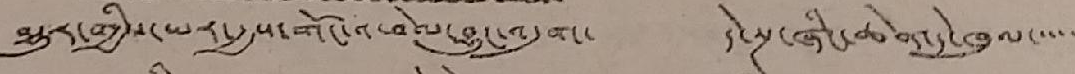མྱུར་གྱིས་ཡར་རྒྱས་གོང་འཕེལ་བྱུང་འདུག་ དེ་སྔ་ཞིང་ཆེན་དེ་ཁུལ་་་་་
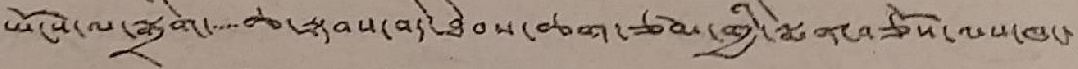ཡོངས་ལ་སྒྲིག་་་་་ཆ་སྟབས་བདེ་ཐེབས་ཆག་ཙམ་གྱི་སྨན་བཅོས་ལས་ཁང་
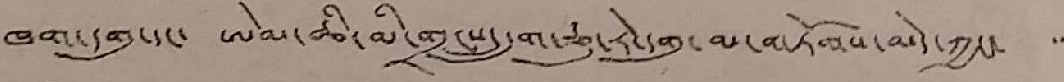ཁག་དགུ་དང་ ཨེམ་ཆི་མི་གྲངས་དྲུག་ཅུ་རེ་དགུ་མ་གཏོགས་མེད་ཀྱང་ ་་
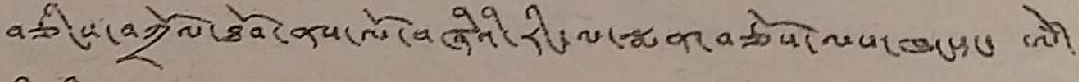བཅིངས་བཀྲོལ་ཐོབ་ནས་ལོ་བཞིའི་རིང་ལ་སྨན་བཅོས་ལས་ཁང་དང་ ཨེཾ་
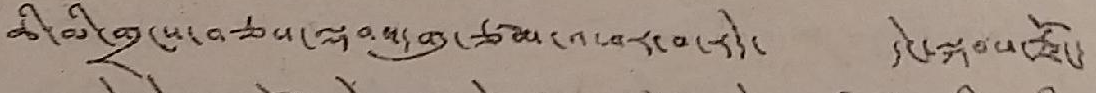ཆི་མི་གྲངས་བཅས་ལྡབས་དགུ་ཙམ་འཕར་བ་རེད་ དེང་སྐབས་རྫོང་
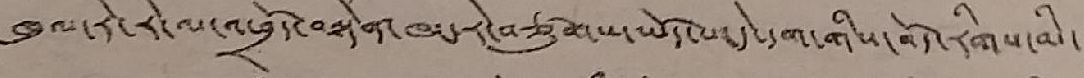ཁུལ་རེ་རེ་ལ་འཕྲོད་བསྟེན་ཁང་རེ་བཙུགས་ཡོད་པ་དེ་དག་གིས་བོད་རིགས་མི་
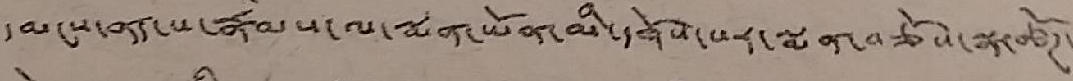དམངས་ནད་པ་རྣམས་ལ་སྨན་ཡོན་མི་དགོས་པར་སྨན་བཅོས་སྣ་ཚོཊ་
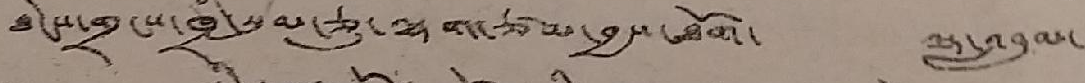ཐེངས་གྲངས་ཁྲི་སུམ་ཅུ་ལྷག་ཙམ་བྱས་ཐོག་ ལྷ་འབྲུམ་
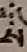ས
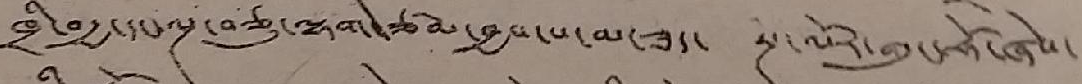ཁྲི་བརྒྱ་དང་ལྔ་བཅུ་ལྷག་ཙམ་བྱས་པ་མ་ཟད་ སྔ་ལོར་གུང་ཧོ་ཞེས་
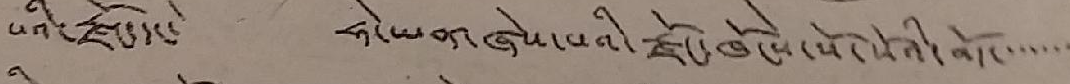པའི་རྫོང་དང་ ཧེ་ཡན་ཞེས་པའི་རྫོང་ཁོངས་སོ་སོའི་བོད་་་་་་་
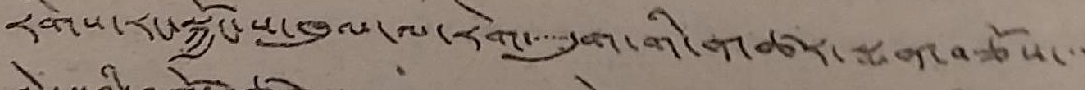རིགས་རང་སྐྱོང་ས་ཁུལ་ལ་རེག་་་་་དུག་གི་ན་ཚར་སྨན་བཅོས་་་
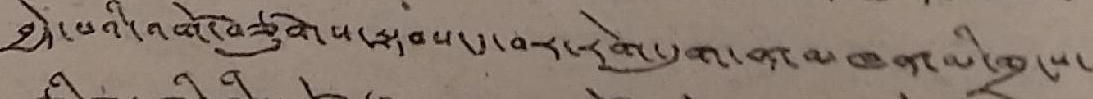བྱེད་པའི་འགོ་བཙུགས་སྟབས་ད་བར་རེག་དུག་ན་མཁན་མི་གྲངས་
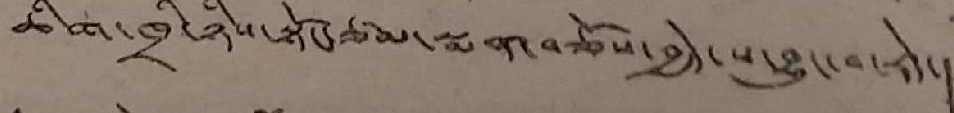ཆིག་ཁྲི་ཉིས་སྟོང་ཙམ་སྨན་བཅོས་བྱེད་ས་བྱུང་བ་རེད་།
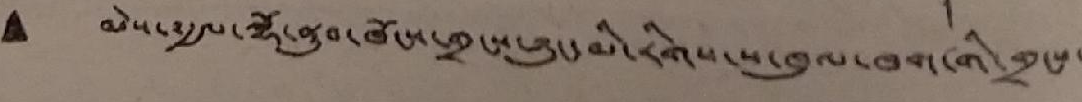• མེས་༸རྒྱལ་ལྷོ་ནུབ་ཁོངས་གྲངས་ཉུང་མི་རིགས་ས་ཁུལ་ཁག་གི་གྲངས་
